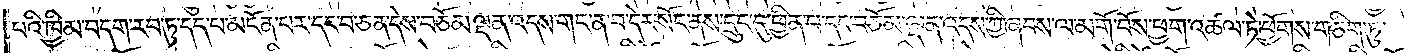པའི་ཁྱིམ་བདག་རབ་ཏུ་དད་པ་མངོན་པར་དང་བ་ཅན་དེས་བཅོམ་ལྡན་འདས་གང་ན་བ་དེར་སོང་ནས་དྲུང་དུ་ཕྱིན་པ་དང་བཅོམ་ལྡན་འདས་ཀྱི་ཞབས་ལ་མགོ་བོས་ཕྱག་འཚལ་ཏེ་ཕྱོགས་གཅིག་ཏུ་
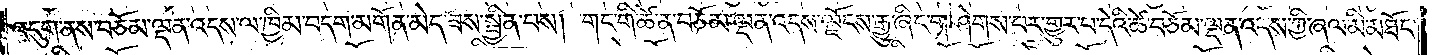འདུག་ནས་བཅོམ་ལྡན་འདས་ལ་ཁྱིམ་བདག་མགོན་མེད་ཟས་སྦྱིན་པས། གང་གི་ཚེ་ན་བཅོམ་ལྡན་འདས་ལྗོངས་རྒྱུ་ཞིང་གཤེགས་པར་གྱུར་པ་དེའི་ཚེ་བཅོམ་ལྡན་འདས་ཀྱི་ཞལ་མི་མཐོང་
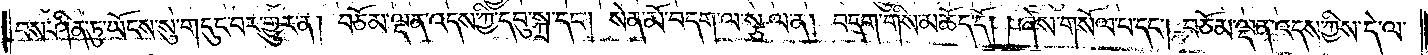བས་ཤིན་ཏུ་ཡོངས་སུ་གདུང་བར་གྱུར་ན། བཅོམ་ལྡན་འདས་ཀྱི་དབུ་སྐྲ་དང༌། སེན་མོ་བདག་ལ་སྩལ་ན། བདག་གིས་མཆོད་དོ། །ཞེས་གསོལ་པ་དང༌། བཅོམ་ལྡན་འདས་ཀྱིས་དེ་ལ་
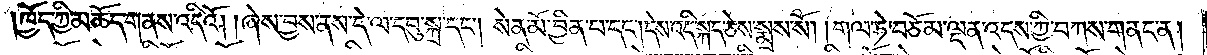ཁྱོད་ཀྱི་མཆོད་གནས་འདིའོ། །ཞེས་བྱས་ནས་དེ་ལ་དབུ་སྐྲ་དང༌། སེན་མོ་བྱིན་པ་དང༌། དེས་འདི་སྐད་ཅེས་སྨྲས་སོ། །གལ་ཏེ་བཅོམ་ལྡན་འདས་ཀྱི་བཀས་གནང་ན།
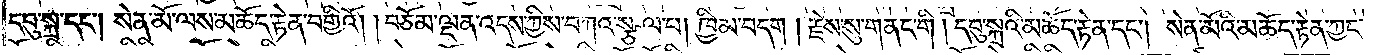དབུ་སྐྲ་དང༌། སེན་མོ་ལས་མཆོད་རྟེན་བགྱིའོ། །བཅོམ་ལྡན་འདས་ཀྱིས་བཀའ་སྩལ་པ། ཁྱིམ་བདག། །རྗེས་སུ་གནང་ངོ༌། །དབུ་སྐྲའི་མཆོད་རྟེན་དང༌། སེན་མོའི་མཆོད་རྟེན་ཀྱང་
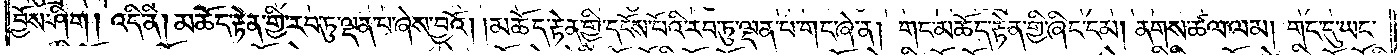བྱོས་ཤིག །འདི་ནི། མཆོད་རྟེན་གྱི་རབ་ཏུ་ལྡན་པ་ཞེས་བྱའོ། །མཆོད་རྟེན་གྱི་དངོས་པོའི་རབ་ཏུ་ལྡན་པ་གང་ཞེ་ན། གང་མཆོད་རྟེན་གྱི་ཞིང་ངམ། ནགས་ཚལ་ལམ། གང་དུ་ཡང་
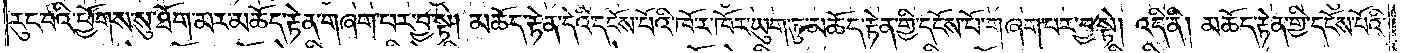རུང་བའི་ཕྱོགས་སུ་ཐོག་མར་མཆོད་རྟེན་གཞག་པར་བྱ་སྟེ། མཆོད་རྟེན་དེའི་དངོས་པོའི་ཁོ་ར་ཁོར་ཡུག་ཏུ་མཆོད་རྟེན་གྱི་དངོས་པོ་གཞག་པར་བྱ་སྟེ། འདི་ནི། མཆོད་རྟེན་གྱི་དངོས་པོའི་
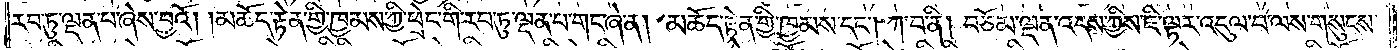རབ་ཏུ་ལྡན་པ་ཞེས་བྱའོ། །མཆོད་རྟེན་གྱི་ཁྱམས་ཀྱི་ཕྲེང་གི་རབ་ཏུ་ལྡན་པ་གང་ཞེ་ན། མཆོད་རྟེན་གྱི་ཁྱམས་དང༌། ཀ་བ་ནི། བཅོམ་ལྡན་འདས་ཀྱིས་ཇི་ལྟར་འདུལ་བ་ལས་གསུངས་
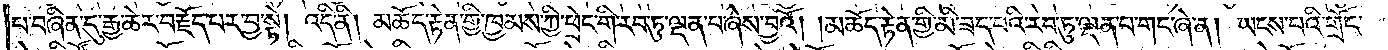པ་བཞིན་དུ་རྒྱ་ཆེར་བརྗོད་པར་བྱ་སྟེ། འདི་ནི། མཆོད་རྟེན་གྱི་ཁྱམས་ཀྱི་ཕྲེང་གི་རབ་ཏུ་ལྡན་པ་ཞེས་བྱའོ། །མཆོད་རྟེན་གྱི་མི་ཟད་པའི་རབ་ཏུ་ལྡན་པ་གང་ཞེ་ན། ཡངས་པའི་གྲོང་
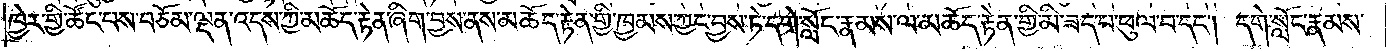ཁྱེར་གྱི་ཚོང་པས་བཅོམ་ལྡན་འདས་ཀྱི་མཆོད་རྟེན་ཞིག་བྱས་ནས་མཆོད་རྟེན་གྱི་ཁྱམས་ཀྱང་བྱས་ཏེ་དགེ་སློང་རྣམས་ལ་མཆོད་རྟེན་གྱི་མི་ཟད་པ་ཕུལ་བ་དང༌། དགེ་སློང་རྣམས་
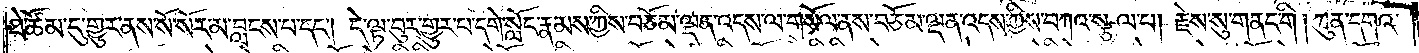ཐེ་ཚོམ་དུ་གྱུར་ནས་སོ་སོར་མ་བླངས་པ་དང༌། དེ་ལྟ་བུར་གྱུར་པ་དགེ་སློང་རྣམས་ཀྱིས་བཅོམ་ལྡན་འདས་ལ་གསོལ་ནས་བཅོམ་ལྡན་འདས་ཀྱིས་བཀའ་སྩལ་པ། རྗེས་སུ་གནང་གི། ཀུན་དགའ་
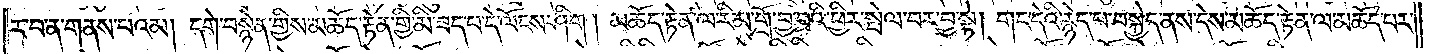ར་བ་ན་གནས་པའམ། དགེ་བསྙེན་གྱིས་མཆོད་རྟེན་གྱི་མི་ཟད་པ་དེ་ལོངས་ཤིག །མཆོད་རྟེན་ལ་རིམ་གྲོ་བྱ་བའི་ཕྱིར་སྤེལ་བར་བྱ་སྟེ། གང་དེའི་རྙེད་པ་བསྐྱེད་ནས་དེ་མཆོད་རྟེན་ལ་མཆོད་པར་
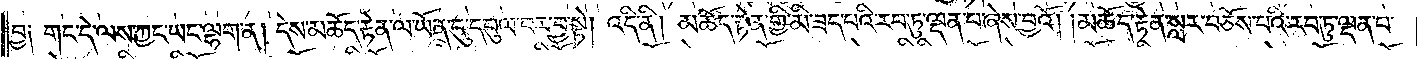བྱ། གང་དེ་ལས་ཀྱང་ཡང་ལྷག་ན། དེས་མཆོད་རྟེན་ལ་ཡོན་ཏུ་དབུལ་བར་བྱ་སྟེ། འདི་ནི། མཆོད་རྟེན་གྱི་མི་ཟད་པའི་རབ་ཏུ་ལྡན་པ་ཞེས་བྱའོ། །མཆོད་རྟེན་སླར་བཅོས་པའི་རབ་ཏུ་ལྡན་པ་
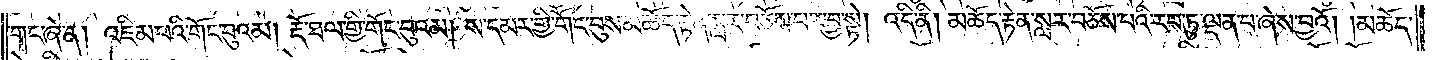གང་ཞེ་ན། འཇིམ་པའི་གོང་བུའམ། རྡོ་ཐལ་གྱི་གོང་བུའམ། ས་དམར་གྱི་གོང་བུས་མཆོད་རྟེན་སླར་བཅོས་པར་བྱ་སྟེ། འདི་ནི། མཆོད་རྟེན་སླར་བཅོས་པའི་རབ་ཏུ་ལྡན་པ་ཞེས་བྱའོ། །མཆོད་
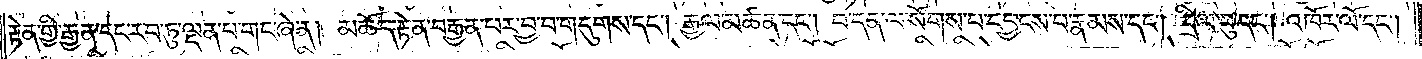རྟེན་གྱི་རྒྱན་དང་རབ་ཏུ་ལྡན་པ་གང་ཞེ་ན། མཆོད་རྟེན་བརྒྱན་པར་བྱ་བ་གདུགས་དང༌། རྒྱལ་མཚན་དང༌། བ་དན་ལ་སོགས་པ་དབྱངས་པ་རྣམས་དང༌། དྲིལ་བུ་དང༌། འཁོར་ལོ་དང༌།
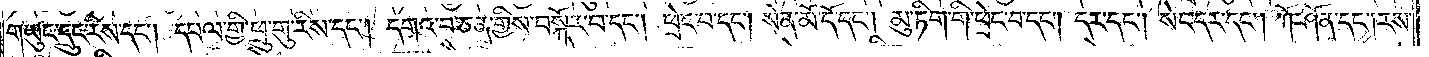གཡུང་དྲུང་རིས་དང༌། དཔལ་གྱི་ཕྲུ་གུ་རིས་དང༌། དགའ་བ་ཅན་གྱིས་བསྐོར་བ་དང༌། ཕྲེང་བ་དང༌། སེན་མོ་དོ་དང༌། མུ་ཏིག་གི་ཕྲེང་བ་དང༌། དར་དང༌། སེང་དར་དང༌། ཀོ་ཤོན་དང༌། རས་
